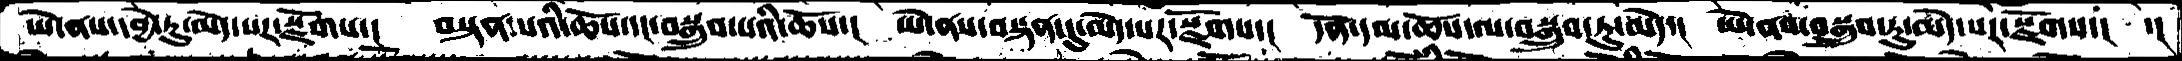ཡེ་ནས་དབྱེ་ཏུ་མེད་པར་སྫོགས་། བསྟན་པའི་ཆོས་དང་བསྒྲུབ་པའི་ཆོས་།  ཡེ་ནས་བསྟན་དུ་མེད་པར་སྫོགས་།  དོན་དམ་ཆོས་ལ་བསྒྲུབ་ཏུ་མེད་།  ཡེ་ནས་བསྒྲུབ་ཏུ་མེད་པར་སྫོགས་།  ་།
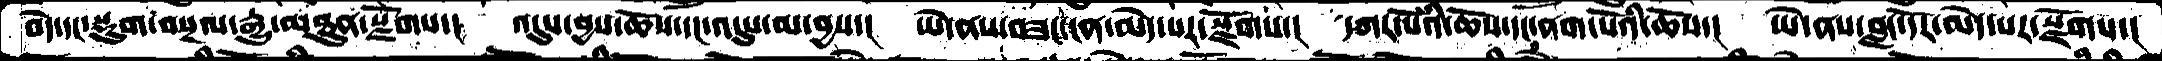བདེ་དང་སྡུག་བསྔལ་རྒྱུ་མཐུན་སྫོགས་།  འདུས་བྱས་ཆོས་དང་འདུས་མ་བྱས་།  ཡེ་ནས་བཟང་ངན་མེད་པར་སྫོགས་།   དཀར་པོའི་ཆོས་དང་ནག་པོའི་ཆོས་།  ཡེ་ནས་བླང་དོར་མེད་པར་སྫོགས་།
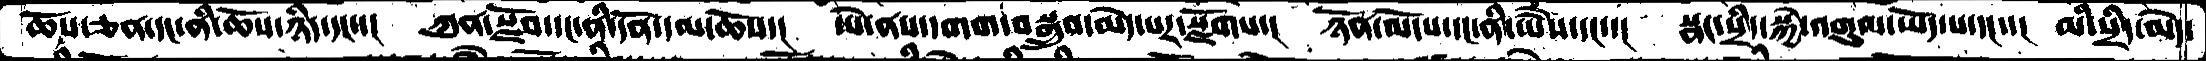ཆོས་ཅན་དང་ནི་ཆོས་ཉིད་དང་་།  ཀུན་སྫོབ་དང་ནི་དོན་དམ་ཆོས་།  ཡེ་ནས་དགག་བསྒྲུབ་མེད་པར་སྫོགས་།  ཉོན་མོངས་དང་ནི་ཡཻས་དང་་།  སྣང་སྲིད་སྐྱེ་འགུམ་་ཡོད་པ་དང་་།  མི་སྲིད་མེད་
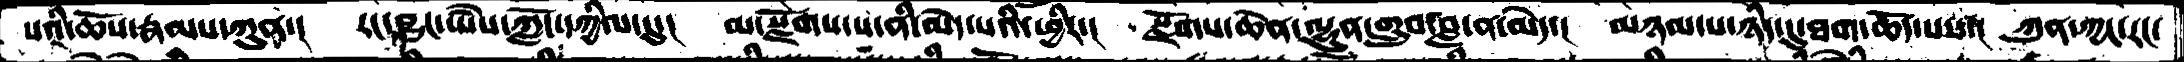པའི་ཆོས་རྣམས་ཀུན་།  རང་བྱུང་ཡཻས་ཀློང་དཀྱིལ་དུ་།  མ་སྫོགས་པ་ནི་མེད་པའི་ཕྱིར་།  སྫོགས་ཆེན་ལྷུན་གྲུབ་བླ་ན་མེད་།  མཉམ་པ་ཉིད་དུ་ཐག་ཆོད་པས་།  ཀུན་ཀྱང་རང་
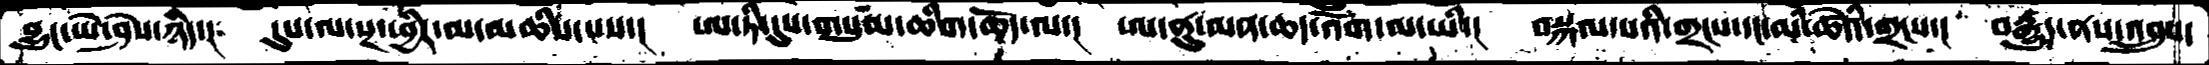བྱུང་ཡེ་ཤེས་ཉིད་།  དུས་ལ་སྔ་ཕྱིར་མ་མཆིས་པས་།  ཨ་ཏི་དུས་གསུམ་ཆིག་ཆོད་ལ་།  ཨ་ནུ་མན་ཆད་འོག་མ་ཡི་།  བསྐལ་པའི་གྲངས་དང་མི་ཚེའི་གྲངས་།  བརྒྱུད་ནས་འབྲུས་
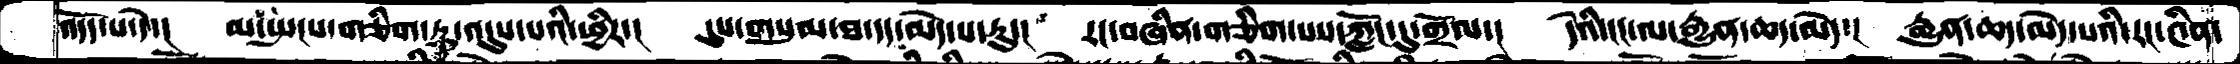འདོད་པ་དེ་།  མ་སྤངས་གཅིག་ཏུ་འདུས་པའི་ཕྱིར་།  དུས་གསུམ་ཐ་དད་མེད་པ་རུ་།  རང་བཞིན་གཅིག་པས་ཀློང་དུ་གྲོལ་།  དེའི་ངང་ལ་རྒྱུན་ཆད་མེད་།  རྒྱུན་ཆད་མེད་པའི་རང་༤ིན་
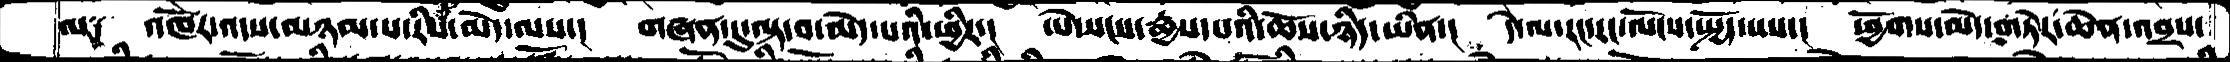ལ༑   འཁོར་འདས་མཉམ་པ་རིས་མེད་ལས་།  གཞན་དུ་ལྟ་བ་མེད་པའི་ཕྱིར་།   ཡེ་སངས་རྒྱས་པའི་ཆོས་ཉིད་ཡིན་།  དེ་ལ་རང་རང་ལོངས་སྤྱོད་པས་།  ཕྱོགས་མེད་གཏེར་ཆེན་འབྲས་
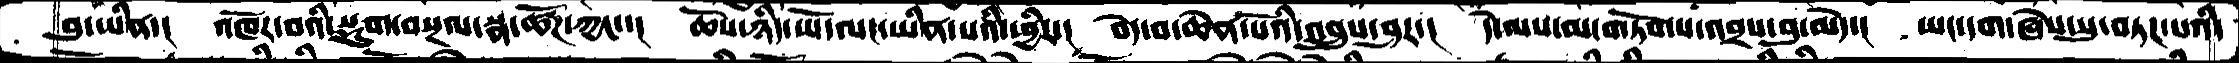བུ་ཡིན་།   འཁོར་བའི་སྡུག་བསྔལ་སྣ་ཚོཌ་ཀྱང་་།  ཆོས་ཉིད་ཡོ་ལང་ཡིན་པའི་ཕྱིར་།  བདེ་བ་ཆེན་པོའི་འབྲུས་ཤར་།  དེ་ལས་མ་གཏོགས་འབྲས་བུ་མེད་།  ཡང་དག་ཞེས་སུ་བཏཌ་པའི་
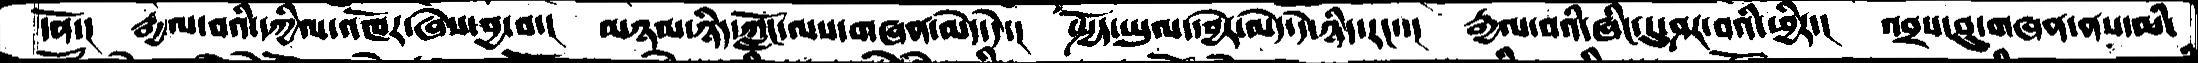དོན་།  རྒྱལ་བའི་དཀྱིལ་འཁོར་ཞེས་བྱ་བ་།  མཉམ་ཉིད་ཀློང་ལས་གཞན་མེད་དེ་།  སྤྱོད་ཡུལ་དབྱེར་མེད་དེ་ཉིད་རང་་།  རྒྱལ་བའི་ཞིང་དུ་ཤར་བའི་ཕྱིར་།  འབྲས་བུ་གཞན་ནས་མི་
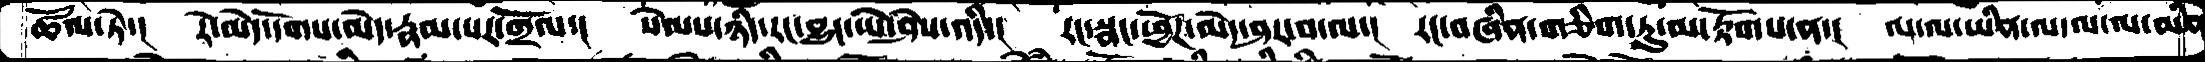ཚོལ་ཏེ་།  རེ་མེད་དོགས་མེད་རྣམ་པར་གྲོལ་།   སེམས་ཉིད་རང་བྱུང་ཡེ་ཤེས་འདི་།  རང་སྣང་ཕྱོཌ་མེད་ཤར་བ་ལ་།  རང་བཞིན་གཅིག་ཏུ་མ་རྟོགས་ན་།  ལ་ལ་ཡིན་ལ་ལ་ལ་མིན
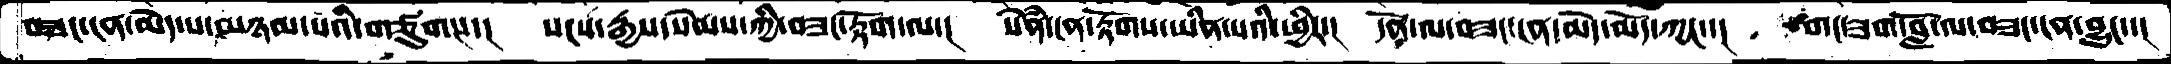བཟང་ངན་མེད་པ་མཉམ་པའི་གཙུགས་།  སངས་རྒྱས་སེམས་ཀྱི་བཟང་རྟོག་ལ་།  སེཾན་ངན་རྟོགས་ཡིན་པའི་ཕྱིར་།  དོན་ལ་བཟང་ངན་མེད་མོད་ཀྱང་་།  གང་ཟག་བློ་ལ་བཟང་ངན་བྱུང་་།
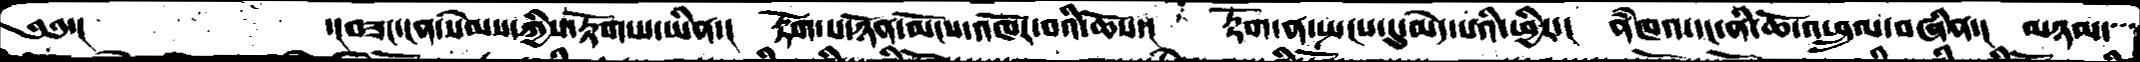༄༅་།          ་།བཟང་ངན་སེམས་ཀྱིས་རྟོག་པ་ཡིན་།  རྟོག་པ་ཉོན་མོངས་འཁོར་བའི་ཆོས་།  རྟོག་ན་སྤངས་དུ་མེད་པའི་ཕྱིར་།  ནཾཁའ་དང་ནི་ཆོ་འཕྲུལ་བཞིན་།  མཉམ་
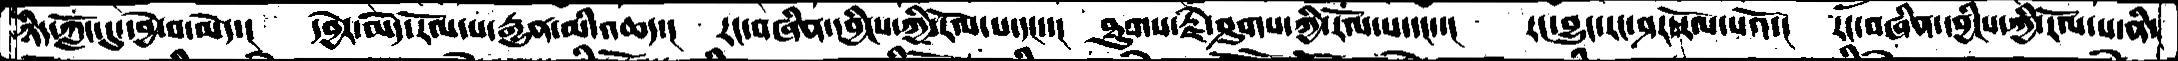ཉིད་ཀློང་དུ་དབྱེ་བ་མེད་།  དབྱེར་མེད་རོལ་པ་རྒྱུན་མི་འཆད་།  རང་བཞིན་དབྱིངས་ཀྱི་རོལ་པ་དང་་།  ཐུགས་རྗེ་ཤུགས་ཀྱི་རོལ་པ་དང་་།  རང་བྱུང་རང་ཤར་སྡོམ་པའོ་།  རང་བཞིན་དབྱིངས་ཀྱི་རོལ་པ་ནི་
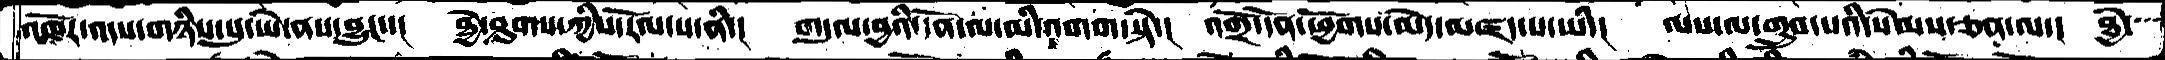འཁོར་འདས་གཉིས་སུ་ཡེ་ནས་བྱུང་་།  ཐྱེ་ཤུགས་ཀྱིས་རོལ་པ་ནི་།  གདུལ་བྱའི་དོན་ལ་མི་འགག་སྟེ་།  འགྲོ་དོན་ཕྱོགས་མེད་མཛད་པ་ཡི་།  ལས་ལ་གྲུབ་པའི་སེམས་ཅན་ལ་།  ཐྱེ་
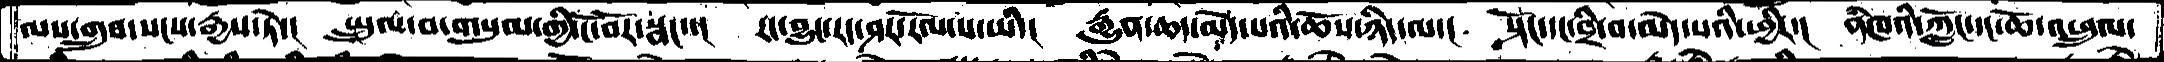ལས་གྲུབ་སངས་རྒྱས་ཏེ་།  སྤྲུལ་བ་གསུམ་གྱི་ངོ་བོར་སྣང་་།  རང་བྱུང་རང་ཤར་རོལ་པ་ཡི་།  རྒྱུན་ཆད་མེད་པའི་ཆོས་ཉིད་ལ་།  སྟོང་དང་བྲི་བ་མེད་པའི་ཕྱིར་།  ནཾཁའི་ཀློང་དང་ཆོ་འཕྲུལ་
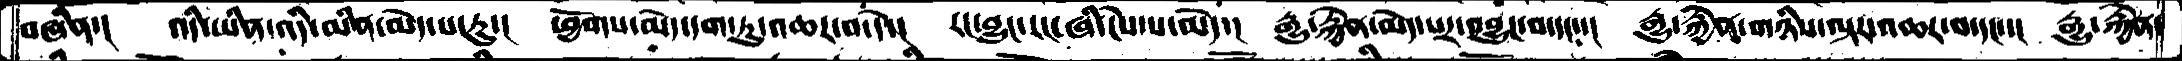བཞིན་།  འདི་ཡིན་འདི་མིན་མེད་པ་རུ་།  ཕྱོགས་མེད་དག་ཏུ་འཆར་བ་དེ་།  རང་བྱུང་རང་ཞི་ངེས་པ་མེད་།  རྒྱུ་རྐྱེན་མེད་པར་འབྱུང་བ་དང་་།  རྒྱུ་རྐྱེན་གཉིས་ལྟར་འཆར་བ་དང་་།  རྒྱུ་རྐྱེན་
